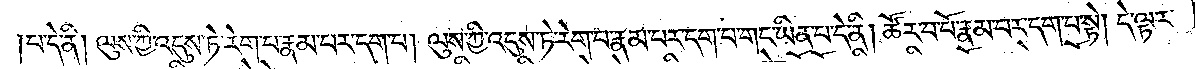པ་དེ་ནི། ལུས་ཀྱི་འདུས་ཏེ་རེག་པ་རྣམ་པར་དག་པ། ལུས་ཀྱི་འདུས་ཏེ་རེག་པ་རྣམ་པར་དག་པ་གང་ཡིན་པ་དེ་ནི། ཚོར་བ་པོ་རྣམ་པར་དག་པ་སྟེ། དེ་ལྟར་
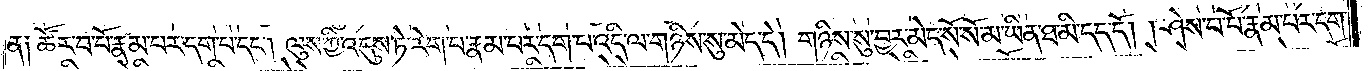ན༑ ཚོར་བ་པོ་རྣམ་པར་དག་པ་དང༌། ལུས་ཀྱི་འདུས་ཏེ་རེག་པ་རྣམ་པར་དག་པ་འདི་ལ་གཉིས་སུ་མེད་དེ། གཉིས་སུ་བྱར་མེད་སོ་སོ་མ་ཡིན་ཐ་མི་དད་དོ། །ཤེས་པ་པོ་རྣམ་པར་དག་
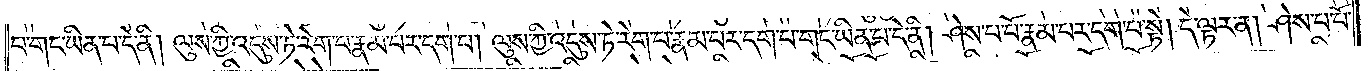པ་གང་ཡིན་པ་དེ་ནི། ལུས་ཀྱི་འདུས་ཏེ་རེག་པ་རྣམ་པར་དག་པ། ལུས་ཀྱི་འདུས་ཏེ་རེག་པ་རྣམ་པར་དག་པ་གང་ཡིན་པ་དེ་ནི། ཤེས་པ་པོ་རྣམ་པར་དག་པ་སྟེ། དེ་ལྟར་ན། ཤེས་པ་པོ་
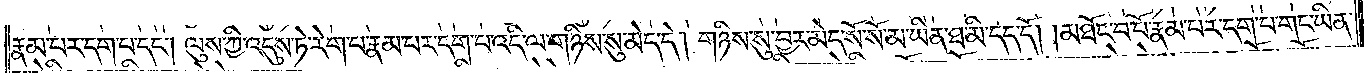རྣམ་པར་དག་པ་དང༌། ལུས་ཀྱི་འདུས་ཏེ་རེག་པ་རྣམ་པར་དག་པ་འདི་ལ་གཉིས་སུ་མེད་དེ། གཉིས་སུ་བྱར་མེད་སོ་སོ་མ་ཡིན་ཐ་མི་དད་དོ། །མཐོང་བ་པོ་རྣམ་པར་དག་པ་གང་ཡིན་
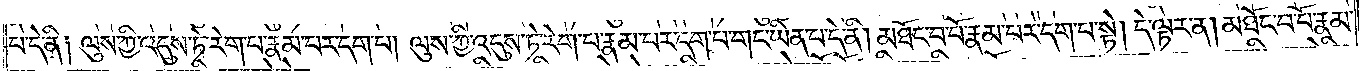པ་དེ་ནི༑ ལུས་ཀྱི་འདུས་ཏེ་རེག་པ་རྣམ་པར་དག་པ། ལུས་ཀྱི་འདུས་ཏེ་རེག་པ་རྣམ་པར་དག་པ་གང་ཡིན་པ་དེ་ནི། མཐོང་བ་པོ་རྣམ་པར་དག་པ་སྟེ། དེ་ལྟར་ན། མཐོང་བ་པོ་རྣམ་
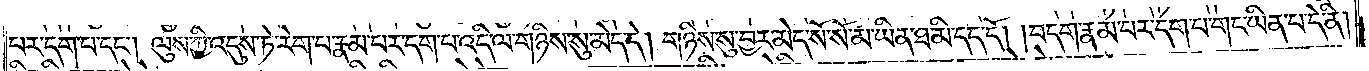པར་དག་པ་དང༌། ལུས་ཀྱི་འདུས་ཏེ་རེག་པ་རྣམ་པར་དག་པ་འདི་ལ་གཉིས་སུ་མེད་དེ། གཉིས་སུ་བྱར་མེད་སོ་སོ་མ་ཡིན་ཐ་མི་དད་དོ། །བདག་རྣམ་པར་དག་པ་གང་ཡིན་པ་དེ་ནི།
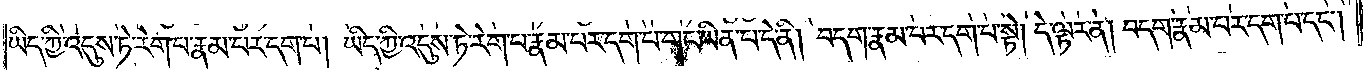ཡིད་ཀྱི་འདུས་ཏེ་རེག་པ་རྣམ་པར་དག་པ། ཡིད་ཀྱི་འདུས་ཏེ་རེག་པ་རྣམ་པར་དག་པ་གང་ཡིན་པ་དེ་ནི། བདག་རྣམ་པར་དག་པ་སྟེ། དེ་ལྟར་ན། བདག་རྣམ་པར་དག་པ་དང༌།
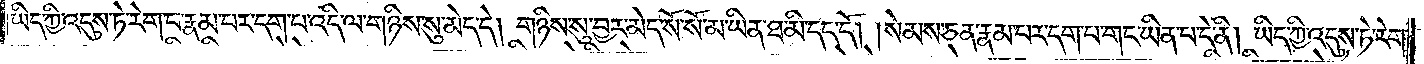ཡིད་ཀྱི་འདུས་ཏེ་རེག་པ་རྣམ་པར་དག་པ་འདི་ལ་གཉིས་སུ་མེད་དེ། གཉིས་སུ་བྱར་མེད་སོ་སོ་མ་ཡིན་ཐ་མི་དད་དོ། །སེམས་ཅན་རྣམ་པར་དག་པ་གང་ཡིན་པ་དེ་ནི། ཡིད་ཀྱི་འདུས་ཏེ་རེག་
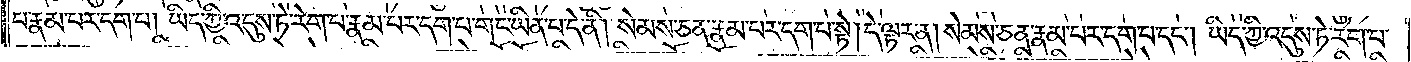པ་རྣམ་པར་དག་པ། ཡིད་ཀྱི་འདུས་ཏེ་རེག་པ་རྣམ་པར་དག་པ་གང་ཡིན་པ་དེ་ནི། སེམས་ཅན་རྣམ་པར་དག་པ་སྟེ། དེ་ལྟར་ན། སེམས་ཅན་རྣམ་པར་དག་པ་དང༌། ཡིད་ཀྱི་འདུས་ཏེ་རེག་པ་
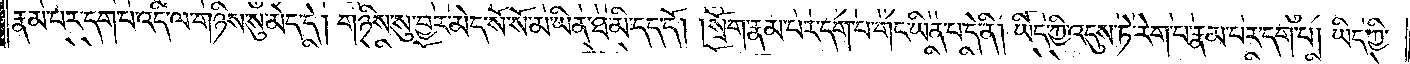རྣམ་པར་དག་པ་འདི་ལ་གཉིས་སུ་མེད་དེ། གཉིས་སུ་བྱར་མེད་སོ་སོ་མ་ཡིན་ཐ་མི་དད་དོ། །སྲོག་རྣམ་པར་དག་པ་གང་ཡིན་པ་དེ་ནི། ཡིད་ཀྱི་འདུས་ཏེ་རེག་པ་རྣམ་པར་དག་པ། ཡིད་ཀྱི་
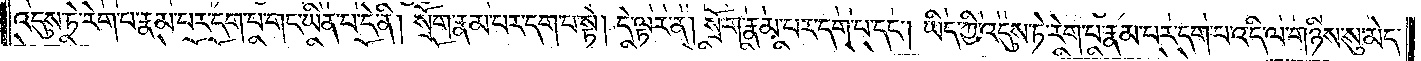འདུས་ཏེ་རེག་པ་རྣམ་པར་དག་པ་གང་ཡིན་པ་དེ་ནི། སྲོག་རྣམ་པར་དག་པ་སྟེ། དེ་ལྟར་ན། སྲོག་རྣམ་པར་དག་པ་དང༌། ཡིད་ཀྱི་འདུས་ཏེ་རེག་པ་རྣམ་པར་དག་པ་འདི་ལ་གཉིས་སུ་མེད་
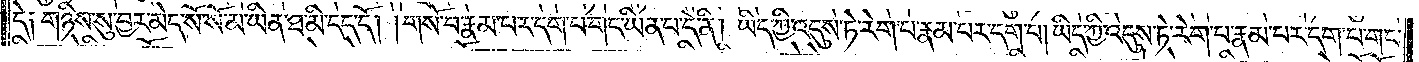དེ༑ གཉིས་སུ་བྱར་མེད་སོ་སོ་མ་ཡིན་ཐ་མི་དད་དོ། །གསོ་བ་རྣམ་པར་དག་པ་གང་ཡིན་པ་དེ་ནི། ཡིད་ཀྱི་འདུས་ཏེ་རེག་པ་རྣམ་པར་དག་པ། ཡིད་ཀྱི་འདུས་ཏེ་རེག་པ་རྣམ་པར་དག་པ་གང་
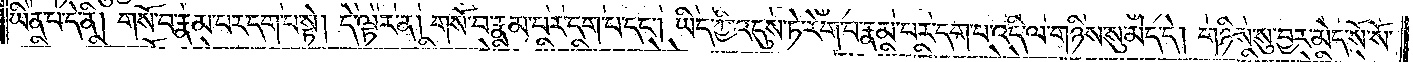ཡིན་པ་དེ་ནི། གསོ་བ་རྣམ་པར་དག་པ་སྟེ། དེ་ལྟར་ན། གསོ་བ་རྣམ་པར་དག་པ་དང༌། ཡིད་ཀྱི་འདུས་ཏེ་རེག་པ་རྣམ་པར་དག་པ་འདི་ལ་གཉིས་སུ་མེད་དེ། གཉིས་སུ་བྱར་མེད་སོ་སོ་
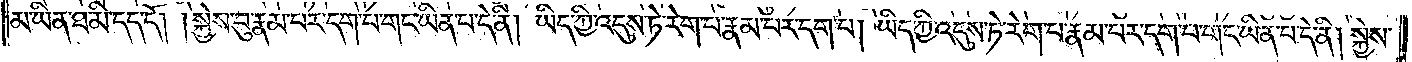མ་ཡིན་ཐ་མི་དད་དོ། །སྐྱེས་བུ་རྣམ་པར་དག་པ་གང་ཡིན་པ་དེ་ནི། ཡིད་ཀྱི་འདུས་ཏེ་རེག་པ་རྣམ་པར་དག་པ། ཡིད་ཀྱི་འདུས་ཏེ་རེག་པ་རྣམ་པར་དག་པ་གང་ཡིན་པ་དེ་ནི། སྐྱེས་
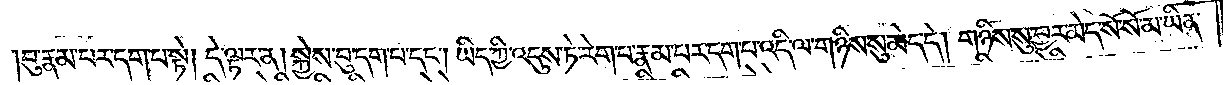བུ་རྣམ་པར་དག་པ་སྟེ། དེ་ལྟར་ན། སྐྱེས་བུ་དག་པ་དང༌། ཡིད་ཀྱི་འདུས་ཏེ་རེག་པ་རྣམ་པར་དག་པ་འདི་ལ་གཉིས་སུ་མེད་དེ། གཉིས་སུ་བྱར་མེད་སོ་སོ་མ་ཡིན་
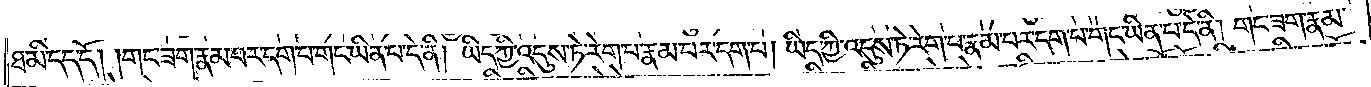ཐ་མི་དད་དོ། །གང་ཟག་རྣམ་པར་དག་པ་གང་ཡིན་པ་དེ་ནི། ཡིད་ཀྱི་འདུས་ཏེ་རེག་པ་རྣམ་པར་དག་པ། ཡིད་ཀྱི་འདུས་ཏེ་རེག་པ་རྣམ་པར་དག་པ་གང་ཡིན་པ་དེ་ནི། གང་ཟག་རྣམ་
